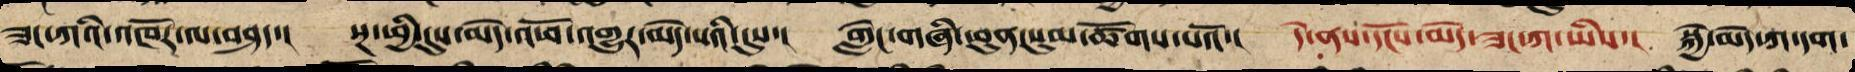ཟང་ཀའི་འཁོར་ལ་བཤད་། སྔ་ཕྱི་དུས་མེད་འཕོ་འགྱུར་མེད་པའི་དུས་། གླེང་གཞི་ཕུན་སུམ་ཚོགས་པའོ་། དེ་ནས་དངོས་མེད་ཟང་ཀ་ཡིས་། སྐྱེ་མེད་ཀ་དག་
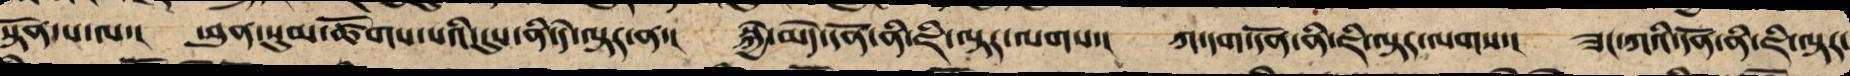སྟོན་པ་ལ་། ཕུན་སུམ་ཚོགས་པའི་དུས་ནི་དེ་ལྟར་ན་། སྐྱེ་མེད་དོན་ནི་ཇི་ལྟར་ལགས་། ཀ་དག་དོན་ནི་ཇི་ལྟར་ལགས་། ཟང་ཀའི་དོན་ནི་ཇི་ལྟར་
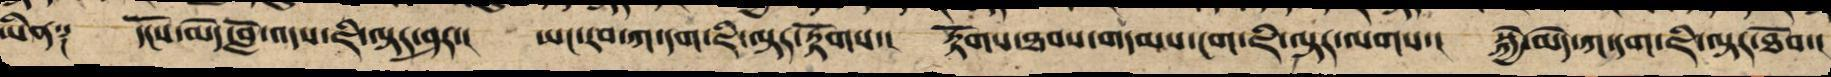ཡིན༑ དངོས་མེད་བློ་འདས་ཇི་ལྟར་བཤད་། ཡང་རབ་ཀ་དག་ཇི་ལྟར་རྟོགས་། རྟོགས་ཐབས་གདམས་ངག་ཇི་ལྟར་ལགས་། སྐྱེ་མེད་ཀ་དག་ཇི་ལྟར་ཐོབ་།
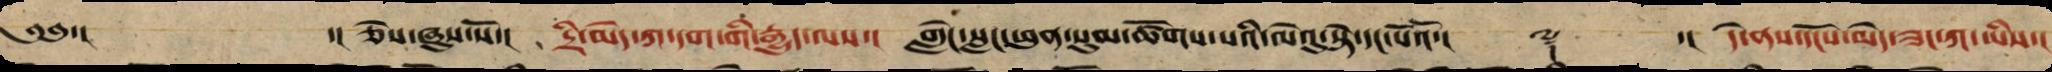༄༅་། ་། ཅེས་ཞུས་སོ་། དྲི་མེད་ཀ་དག་གི་རྒྱུད་ལས་། གླེང་སླང་ཕུན་སུམ་ཚོགས་པའི་ལེའུ་སྟེ་དང་པོའོ་།། ༈ ་། དེ་ནས་དངོས་མེད་ཟང་ཀ་ཡིས་།
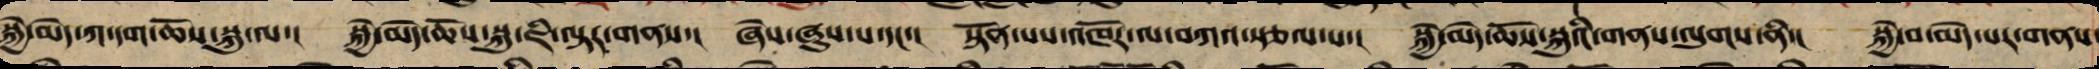སྐྱེ་མེད་ཀ་དག་ཆོས་སྐུ་ལ་། སྐྱེ་མེད་ཆོས་སྐུ་ཇི་ལྟར་གནས་། ཞེས་ཞུས་པ་དང་་། སྟོན་པས་འཁོར་ལ་བཀའ་སྩལ་པ་། སྐྱེ་མེད་ཆོས་སྐུའི་གནས་ལུགས་ནི་། སྐྱེ་བ་མེད་པར་གནས་
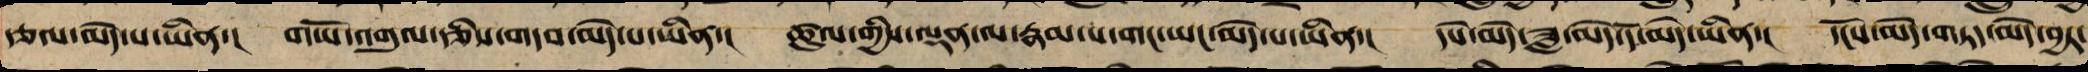རྩལ་མེད་པ་ཡིན་། གཡོ་འགུལ་རྩིས་གདབ་མེད་པ་ཡིན་། ཚུལ་གྱིས་ལྡན་ལ་རྣམ་པ་གང་ཡང་མེད་པ་ཡིན་། དཔེ་མེད་ཟླ་མེད་དོ་མེད་ཡིན་། དངོས་མེད་གཏད་མེད་བྱར་
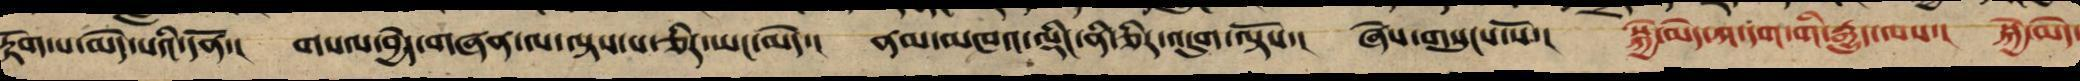རྟོག་པ་མེད་པའི་དོན་། གསལ་བྱེད་གཞན་ལ་ལྟས་པ་ཅིར་ཡང་མེད་། ནམ་མཁའ་ལྡིང་ནི་ཅིར་འདུག་ལྟོས་། ཞེས་གསུངས་སོ་། སྐྱེ་མེད་ཀ་དག་གི་རྒྱུད་ལས་། སྐྱེ་མེད་
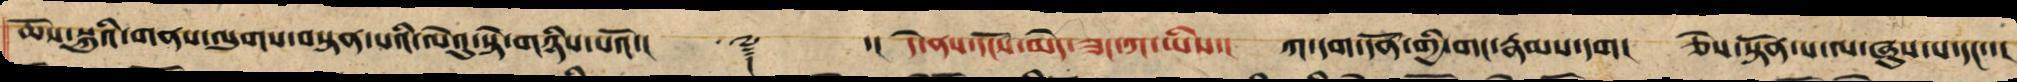ཆོས་སྐུའི་གནས་ལུགས་བསྟན་པའི་ལེའུ་སྟེ་གཉིས་པའོ་།། ༈ ་། དེ་ནས་དངོས་མེད་ཟང་ཀ་ཡིས་། ཀ་དག་དོན་གྱི་གང་རྣམས་དག། ཅེས་སྟོན་པ་ལ་ཞུས་པ་དང་་།
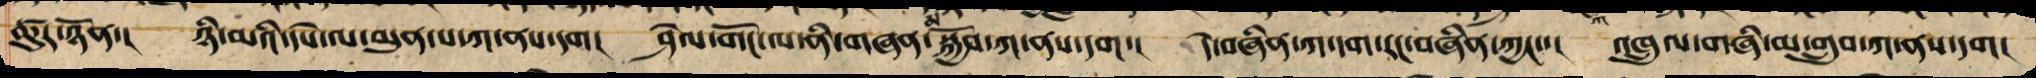ཚུར་ཉོན་། ཉི་མའི་དཔེ་ལ་མུན་པ་ཀ་ནས་དག། ཤེལ་གོང་ལ་ནི་གཞན་སྐྱོབ་ཀ་ནས་དག་། དེ་བཞིན་ཀ་དག་རང་བཞིན་ཀྱང་་། འཁྲུལ་གཞི་མ་གྲུབ་ཀ་ནས་དག།
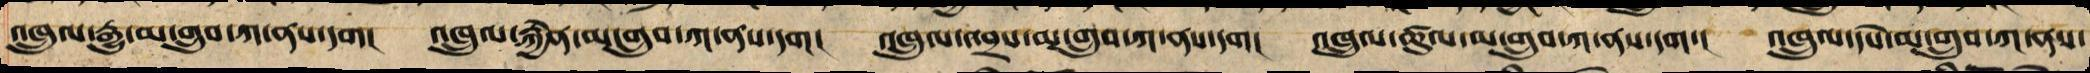འཁྲུལ་རྒྱུ་མ་གྲུབ་ཀ་ནས་དག། འཁྲུལ་རྐྱེན་མ་གྲུབ་ཀ་ནས་དག། འཁྲུལ་འབྲས་མ་གྲུབ་ཀ་ནས་དག། འཁྲུལ་ཚུལ་མ་གྲུབ་ཀ་ནས་དག་། འཁྲུལ་དཔེ་མ་གྲུབ་ཀ་ནས་
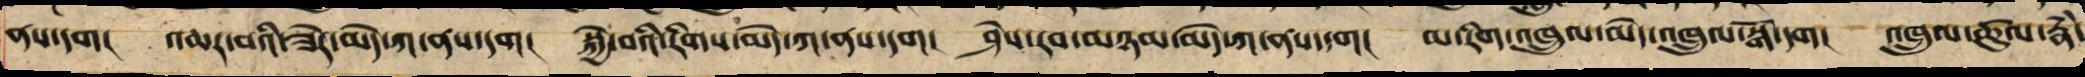ནས་དག། འཆར་བའི་ཟེར་མེད་ཀ་ནས་དག། སྐྱེ་བའི་རིགས་མེད་ཀ་ནས་དག། ཤེས་རབ་མཉམ་མེད་ཀ་ནས་དག། མ་རིག་འཁྲུལ་མེད་འཁྲུལ་སྒོ་དག། འཁྲུལ་ཚུལ་རྣཾ་
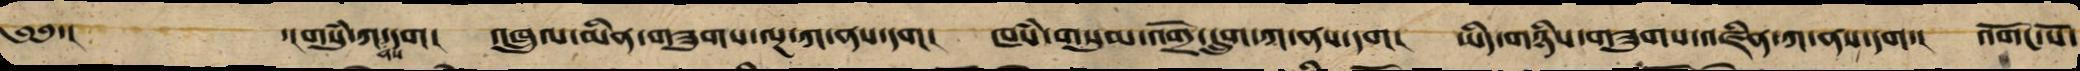༄༅་། ་།གསུམ་ཀ་དག། འཁྲུལ་མིན་གཟུགས་ལྔ་ཀ་ནས་དག། ཁཾས་གསུམ་འགྲོ་དྲུག་ཀ་ནས་དག། ཡིད་གཉིས་གཟུགས་འཛིན་ཀ་ནས་དག་། འགོང་པོ་
